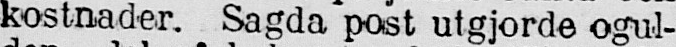kostnader. Sagda post utgjorde ogul-
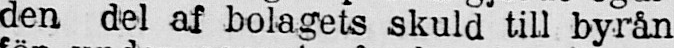den del af bolagets skuld till byrån
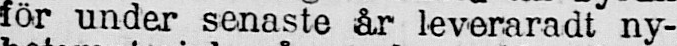för under senaste år leveraradt ny-
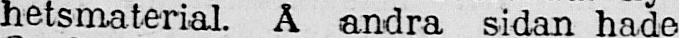hetsmaterial. Å andra sidan hade
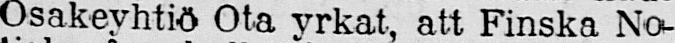Osakeyhtiö Ota yrkat, att Finska No-
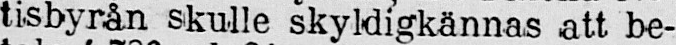tisbyrån skulle skyldigkännas att be-
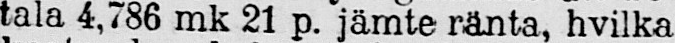tala 4,786 mk 21 p. jämte ränta, hvilka
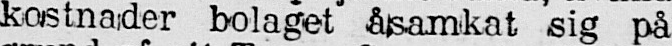kostnader bolaget åsamkat sig på
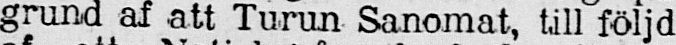grund af att Turun Sanomat, till följd
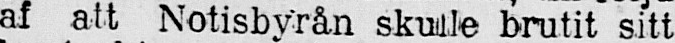af att Notisbyrån skulle brutit sitt
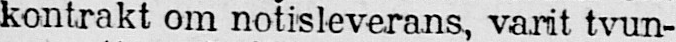kontrakt om notisleverans, varit tvun-
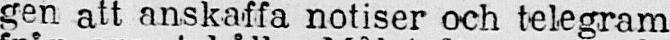gen att anskaffa notiser och telegram
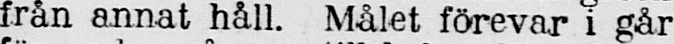från annat håll. Målet förevar i går
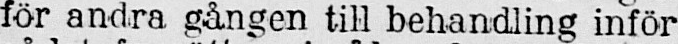för andra gången till behandling inför
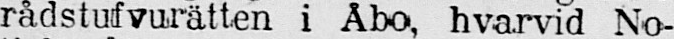rådstufvurätten i Åbo, hvarvid No-
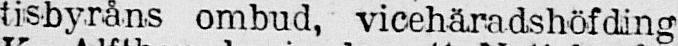tisbyråns ombud, vicehäradshöfding
